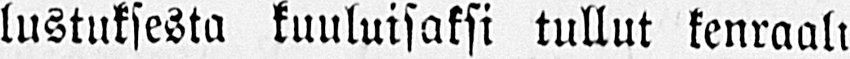lustuksesta kuuluisaksi tullut kenraali
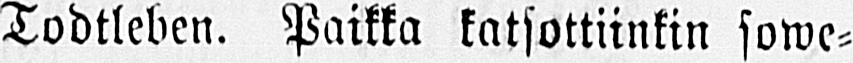Todtleben. Paikka katsottiikin sowe-
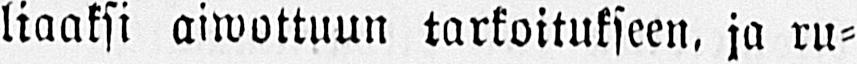liaaksi aiwottuun tarkoitukseen, ja ru-
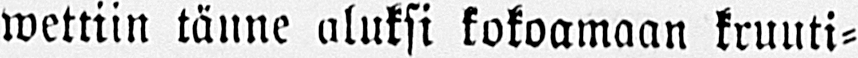wettiin tänne aluksi kokoamaan kruuti-
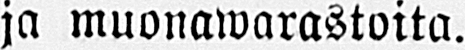ja muonawarastoita.
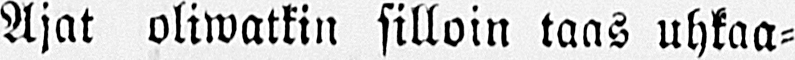Ajat oliwatkin silloin taas uhkaa-
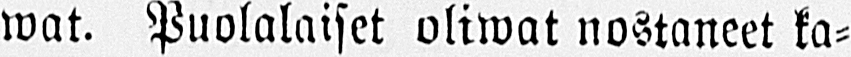wat. Puolalaiset oliwat nostaneet ka-
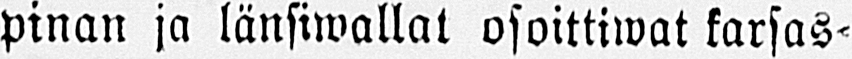pinan ja länsiwallat osoittiwat karsas-
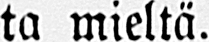ta mieltä.
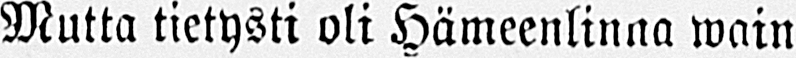Mutta tietysti oli Hämeenlinna wain
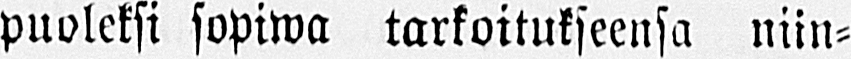puoleksi sopiwa tarkoitukseensa niin-
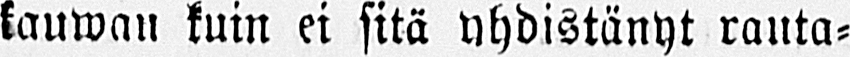kauwan kuin ei sitä yhdistänyt rauta-
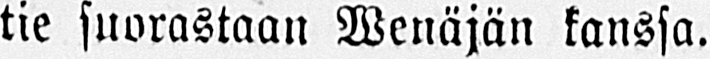tie suorastaan Wenäjän kanssa.
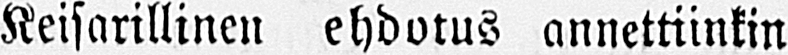Keisarillinen ehdotus annettiinkin
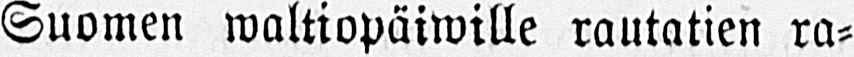Suomen waltiopäiwille rautatien ra-
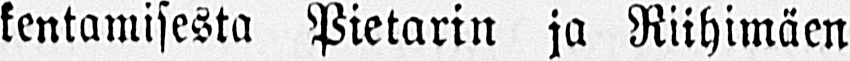kentamisesta Pietarin ja Riihimäen
